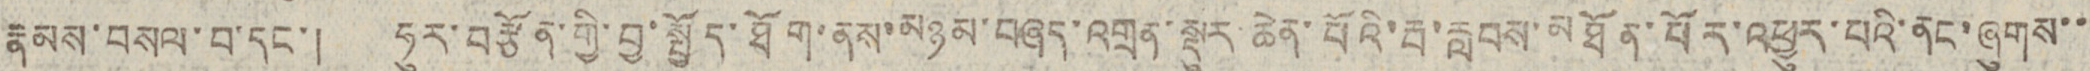རྣམས་བསལ་བ་དང་། ཧུར་བརྩོན་གྱི་བྱ་སྤྱོད་ཐོག་ནས་མཉམ་བཞད་འགྲན་སྡུར་ཆེན་པོའི་རྦ་རླབས་མཐོན་པོར་འཕྱུར་པའི་ནང་ཞུགས་་
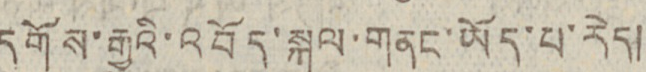དགོས་རྒྱུའི་འབོད་སྐུལ་གནང་ཡོད་པ་རེད།
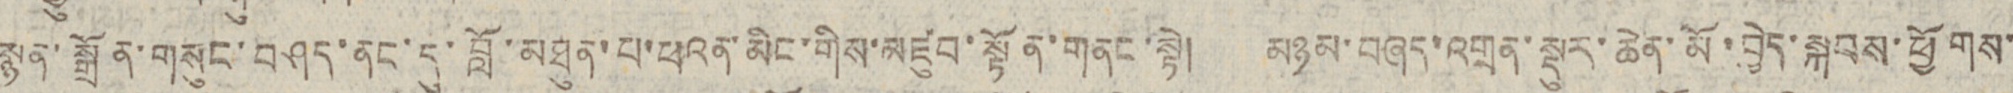སྙན་སྒྲོན་གསུང་བཤད་ནང་དུ་བློ་མཐུན་པ་ཕའན་མིང་གིས་མཛུབ་སྟོན་གནང་སྟེ། མཉམ་བཞད་འགྲན་སྡུར་ཆེན་མོ་བྱེད་སྐབས་ཕྱོགས་
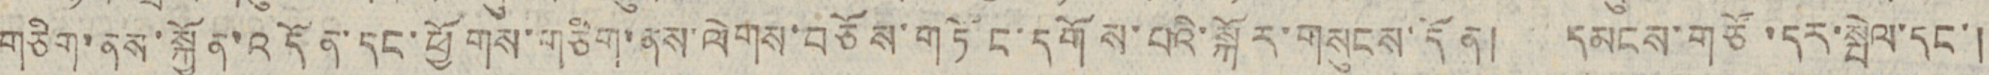གཅིག་ནས་སྐྱོན་འདོན་དང་ཕྱོགས་གཅིག་ནས་ལེགས་བཅོས་གཏོང་དགོས་པའི་སྐོར་གསུངས་དོན། དམངས་གཙོ་དར་སྤེལ་དང་།
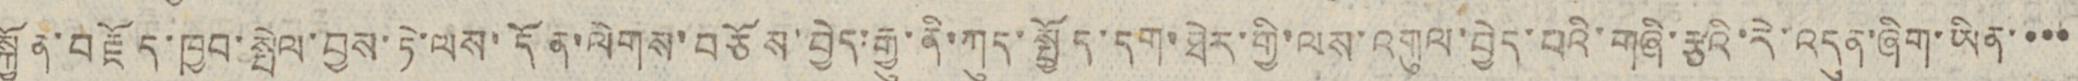སྐྱོན་བརྗོད་ཁྱབ་སྤེལ་བྱས་ཏེ་ལས་དོན་ལེགས་བཅོས་བྱེད་རྒྱུ་ནི་ཀུད་སྤྱོད་དག་ཐེར་གྱི་ལས་འགུལ་བྱེད་པའི་གཞི་རྩའི་རེ་འདུན་ཞིག་ཡིན་་་་
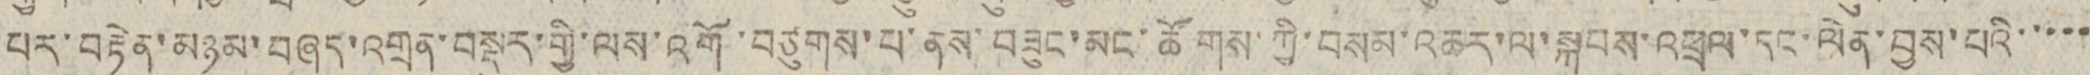པར་བརྟེན་མཉམ་བཞད་འགྲན་བསྡུར་གྱི་ལས་འགོ་བཙུགས་པ་ནས་བཟུང་མང་ཚོགས་ཀྱི་བསམ་འཆར་ལ་སྐབས་འཕྲལ་དང་ལེན་བྱས་པའི་་་་་
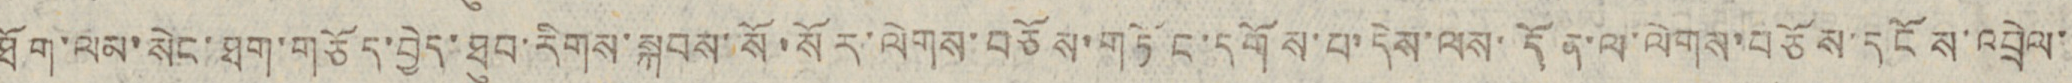ཐོག་ལམ་སེང་ཐག་གཅོད་བྱེད་ཐུབ་རིགས་སྐབས་སོ་སོར་ལེགས་བཅོས་གཏོང་དགོས་པ་དེས་ལས་དོན་ལ་ལེགས་བཅོས་དངོས་འབྲེལ་
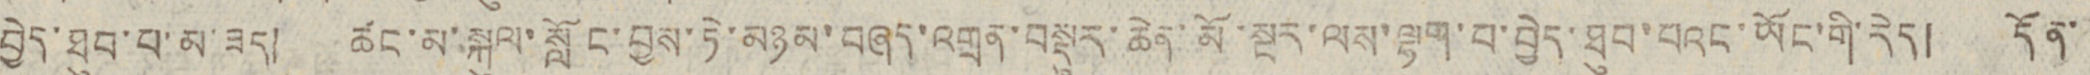བྱེད་ཐུབ་པ་མ་ཟད། ཚང་མ་སྐུལ་སློང་བྱས་ཏེ་མཉམ་ཞད་འགྲན་བསྡུར་ཆེན་མོ་སྔར་ལས་ལྷག་པ་བྱེད་ཐུབ་པའང་ཡོང་གི་རེད། དོན་
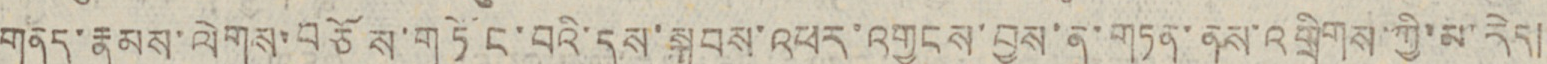གནད་རྣམས་ལེགས་བཅོས་གཏོང་བའི་དུས་སྐབས་འཕར་འགྱངས་བྱས་ན་གཏན་ནས་འགྲིགས་ཀྱི་མ་རེད།
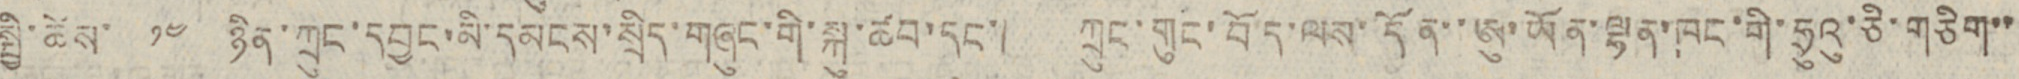སྤྱི་ཚེས་ ༡༤ ཉིན་ཀྲུང་དབྱང་མི་དམངས་སྲིད་གཞུག་གི་སྐུ་ཚབ་དང་། ཀྲུང་གུང་བོད་ལས་དོན་ཨུ་ཡོན་ལྷན་ཁང་གི་ཧྲུའུ་ཅི་གཅིག་་
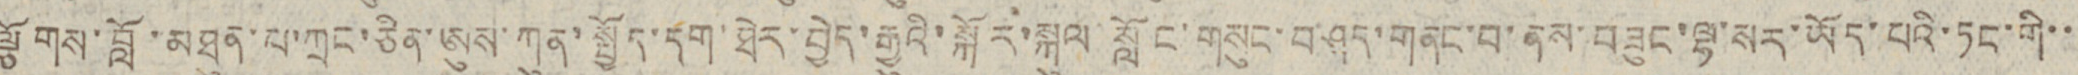ལྕོགས་བློ་མཐུན་པ་ཀྲང་ཅིན་ཨུས་ཀུན་སྤྱོད་དག་ཐེར་བྱེད་རྒྱུའི་སྐོར་སྐུལ་སློང་གསུང་བཤད་གནང་བ་ནས་བཟུང་ལྷ་སར་ཡོད་པའི་ཏང་གི་་
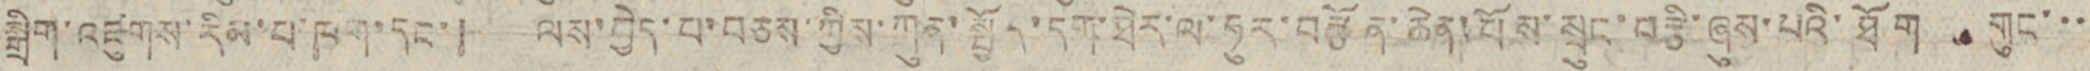སྒྲིག་འཛུགས་རིམ་པ་ཁག་དང་། ལས་བྱེད་པ་བཅས་ཀྱིས་ཀུན་སྤྱོད་དག་ཐེར་ལ་ཧུར་བརྩོན་ཆེན་པོས་སྲུང་བརྩི་ཞུས་པའི་ཐོག གུང་་་
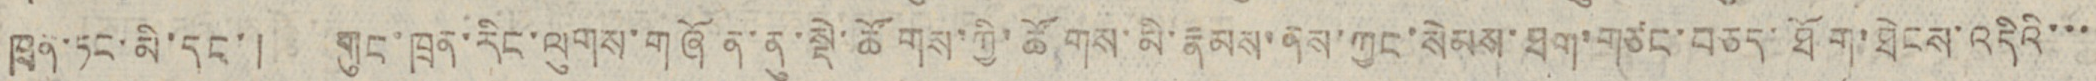ཁྲན་ཏང་མི་དང་། གུང་ཁྲན་རིང་ལུགས་གཞོན་ནུ་སྡེ་ཚོགས་ཀྱི་ཚོགས་མི་རྣམས་ནས་ཀྱང་སེམས་ཐག་གཙང་བཅད་ཐོག་ཐེངས་འདིའི་་་
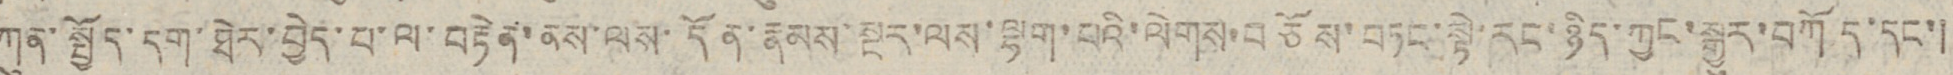ཀུན་སྤྱོད་དག་ཐེར་བྱེད་པ་ལ་བརྟེན་ནས་ལས་དོན་རྣམས་སྔར་ལས་ལྷག་པའི་ལེགས་བཅོས་བཏང་སྟེ་རང་ཉིད་ཀྱང་སྒྱུར་བཀོད་དང་།
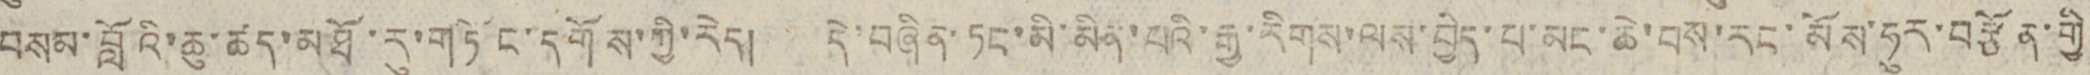བསམ་བློའི་ཆུ་ཚད་མཐོ་རུ་གཏོང་དགོས་ཀྱི་རེད། དེ་བཞིན་ཏང་མི་མིན་པའི་རྒྱ་རིགས་ལས་བྱེད་པ་མང་ཆེ་བས་རང་མོས་ཧུར་བརྩོན་གྱི
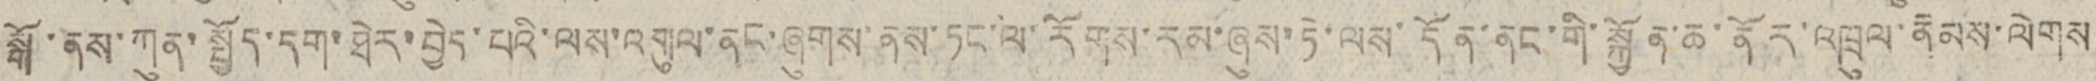སྒོ་ནས་ཀུན་སྤྱོད་དག་ཐེར་བྱེད་པའི་ལས་འགུལ་ནང་ཞུགས་ནས་ཏང་ལ་རོགས་རམ་ཞུས་ཏེ་ལས་དོན་ནང་གི་སྐྱོན་ཆ་ནོར་འཁྲུལ་རྣམས་ལེགས
